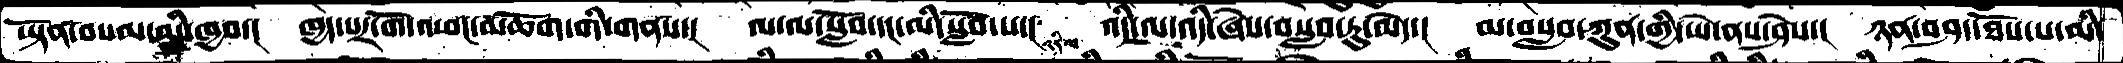ཡྟོན་བསམ་མི་ཁྱབ་། ཁྱད་པར་གོ་འཕང་མཆོག་གི་གནས་། ལ་ལ་སློབ་དང་མི་སློབ་པ་། འདི་ལ་འདི་ཞེས་བསླབ་ཏུ་མེད་། མ་བསླབ་ཀུན་གྱི་ཡེ་ནས་ཤེས་། ཉན་བཤད་ཐོས་པ་མི་
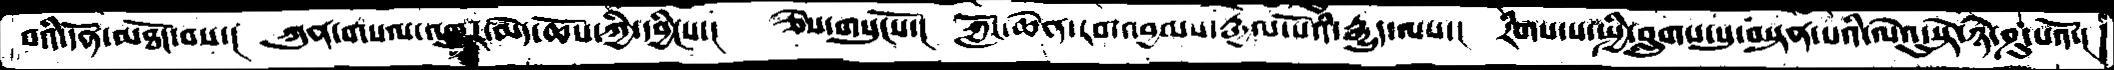བའི་དོན་མཐོང་བས་།  ཀུན་གསལ་འགྱུར་མེད་ཆོས་ཀྱི་དབྱིངས་།  ཅེས་གསུངསོ་།  ཀློང་ཆེན་རབ་འབྱམས་རྒྱལ་པོའི་རྒྱུད་ལས་།  རིགས་པ་སྤྱི་བླུགས་སུ་བསྟན་པའི་ལེའུ་སྟེ་ཉི་ཤུ་པའོ་།
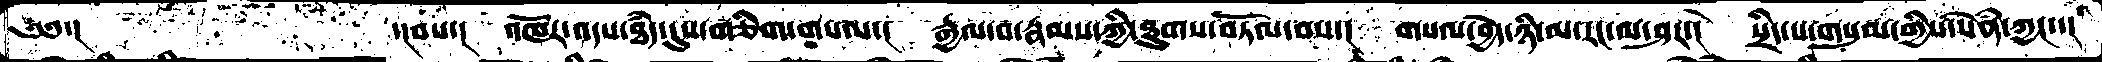༄༅་།                ་།བས་།  འཁོར་འདས་ཐཾད་དུས་གཅིག་གསལ་།  རྒྱལ་བ་རྣམས་ཀྱི་ཐུགས་བཏོལ་བས་། གསལ་བྱེད་ཉི་མ་རང་ལ་ཤར་།  སྲིད་པ་གསུམ་གྱིས་སེཾན་ཀྱང་།
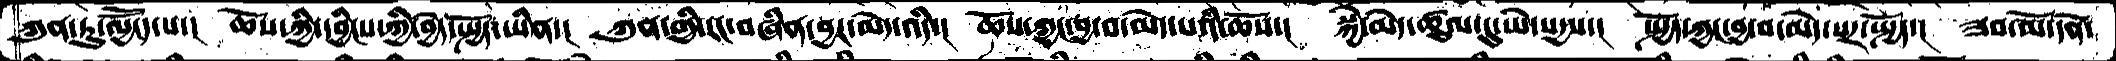ཀུན་ཏུ་ལྱོངོད་པ་།  ཆོས་ཀྱི་དབྱིངས་ཀྱི་བྱེད་སྤྱོད་ཡིན་།  ཀུན་གྱི་རང་བཞིན་བྱར་མེད་འདི་།  ཆོས་ཀྱང་བྱ་བ་མེད་པའི་ཆོས་།  སྐྱེ་མེད་ཚུལ་དུ་ཡེ་སདྱས་།  སྤྱོད་ཀྱང་བྱ་བ་མེད་པར་སྤྱོད་། ཟབ་མོ་དོན་
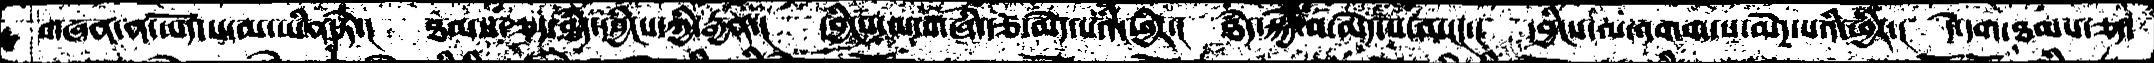གཞན་ན་ཡོད་པ་མ་ཡིན་ཏེ་།  ཐམས་ཅད་ཐཾད་དབྱིངས་ཀྱི་རྒྱན་།  དབྱིངས་ལ་གཞི་རྩ་མེད་པའི་ཕྱིར་།  ཐཾད་སྐྱེ་བ་མེད་པ་ལ་།་།  དབྱིངས་ལ་འགག་པ་མེད་པའི་ཕྱིར་།  དེ་དག་ཐམས་ཅད་
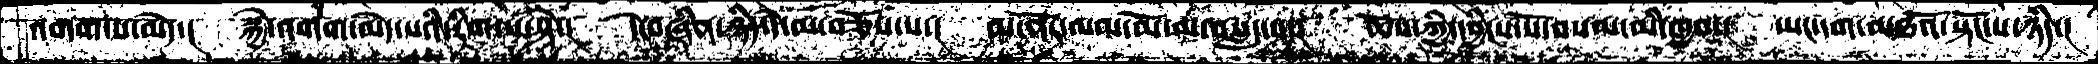འགག་པ་མེད་།  སྐྱེ་འགག་མེད་པའི་རིག་པ་སྟེ་།  དེ་བཞིན་ཉིད་དེ་མ་བཅོས་པ་།  མངོནར་ལམ་མོ་མ་བསླད་པ་།  ཆོས་ཀྱི་དབྱིངས་སོ་བསམ་མི་ཁྱབ་།  ཡང་དག་མཐའོ་སྟོང་པ་ཉིད་།
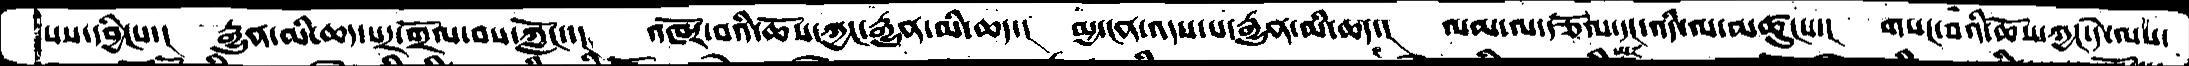པས་དབྱིངས་།  རྒྱུན་མི་ཆད་པར་གྲོལ་བས་ཀློང་་།  འཁོར་བའི་ཆོས་ཀྱང་རྒྱུན་མི་ཆད་།  མྱ་ངན་འདས་པ་རྒྱུན་མི་ཆད་།  ལམ་ལ་རྩོལ་དང་འདི་ལ་མཚུངས་།  གསང་བའི་ཆོས་ཀྱང་དེ་ལས་
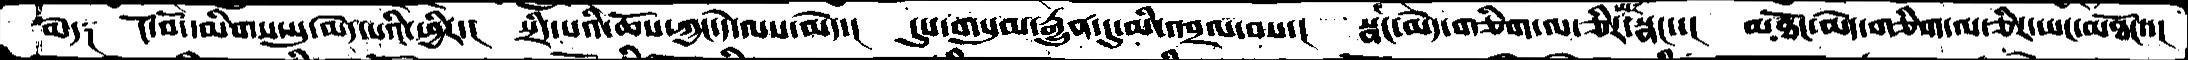མེད༑  ངོ་བོ་དམིགས་སུ་མེད་པའི་ཕྱིར་།  སྲིད་པའི་ཆོས་ཀྱང་དེ་ལས་མེད་།  དུས་གསུམ་རྒྱུན་དུ་མི་འབྲལ་བས་།  སྣང་མེད་གཅིག་ལ་ཅིར་ཡང་སྣང་་།  མཐོང་མེད་གཅིག་ལ་ཅིར་ཡང་མཐོང་་།
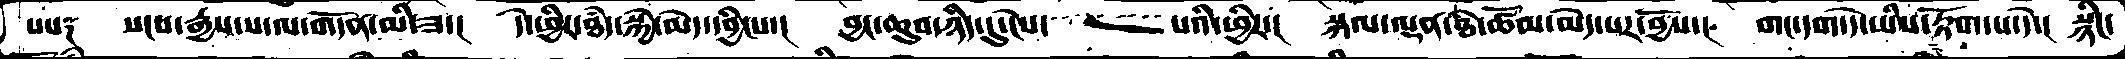པས༑  སངས་རྒྱས་ས་ལ་གདོན་མི་ཟ་།  དེ་ཕྱིར་ཐཾད་སྐྱེ་མེད་དབྱིངས་།  བྱང་ཆུབ་ཉིད་དུ་ངེས་་་་་་་་པའི་ཕྱིར་།  སྐལ་ལྡན་ཐེ་ཚོམ་མེད་པར་བྱོས་།  གང་དག་དེ་ཡིས་རྟོག་པ་དེ་།  སྙིང་
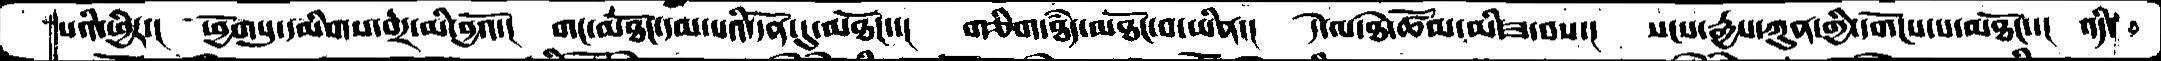པའི་ཕྱིར་།  ཕྱོགསུ་དམིགས་པར་མི་བྱའོ་།  གང་མཐོང་དམ་པའི་དོན་དུ་མཐོང་་།  གཅིག་ཐཾད་མཐོང་བ་ཡིན་།  དེ་ལ་ཐེ་ཚོམས་མི་ཟ་བས་།  སངས་རྒྱས་ཀུན་གྱི་དགོངས་པ་མཐོང་་།  འདི་
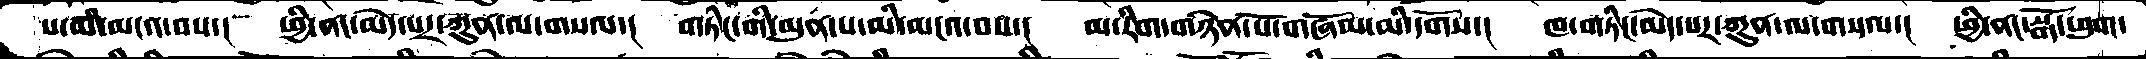པ་མི་མངའ་བས་། ཕྱི་ནང་མེད་པར་ཀུན་ལ་གསལ་། གཏིང་གི་མུན་པ་མི་མངའ་བས་། མ་རིག་གཉེན་པོ་གཞོམ་མི་དགོས་། ཁ་གཏིང་མེད་པར་ཀུན་ལ་གསལ་། ཕྱི་ནང་སྒོ་ཕུག་
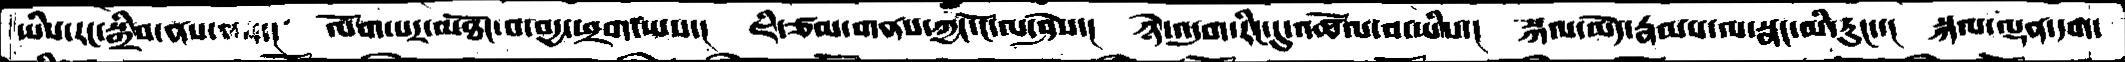ཡིས་རང་སྒྲིབ་ནས་། ལོག་པར་མཐོང་བ་བདྱ་ཕྲག་ཡས་། ཇི་ཙམ་གནས་ཀྱང་ངོ་ལ་ཤེས་། ཉེ་འདུག་རིང་དུ་འཚོལ་བ་ཡིས་། སྐལ་མེད་རྣམས་ལ་སྣང་མི་རུང་་། སྐལ་ལྡན་དག་
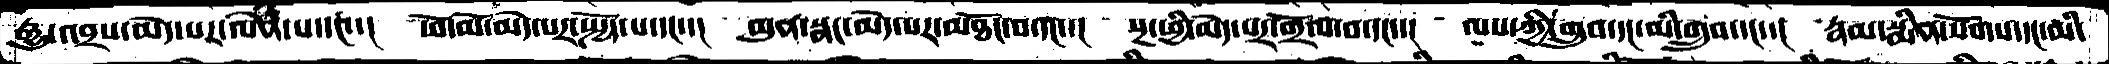རྒྱུ་འབྲས་མེད་པར་ལེན་པ་དང་་། ཕོ་མོ་མེད་པར་སྤྱོད་པ་དང་་། མུན་སྣང་མེད་པར་མཐོང་བ་དང་་། སྔ་ཕྱི་མེད་པར་གྲོལ་བ་དང་་། ལས་ཀྱི་གྲུབ་དང་མི་གྲུབ་དང་་། རྣམ་སྨིན་སོགས་དང་མི་
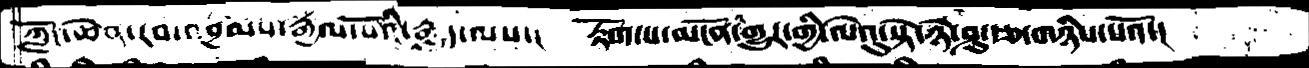ཀློང་ཆེན་རབ་འབྱམས་རྒྱལ་པོའི་རྒྱུད་ལས་།  རྟོག་པ་མངོན་འགྱུར་གྱི་ལེའུ་སྟེ་ཉེ་ཤུ་རྩ་གཉིས་པའོ་།
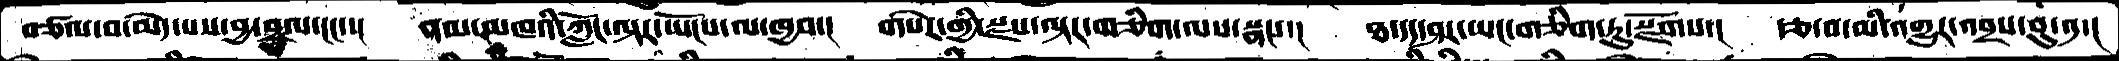བཙལ་བ་མེད་པས་བྱ་བྲལ་ངང་་།  ནམ་མཁའི་ཀློང་ལྟར་ཡོངས་ལ་ཁྱབ་། གསེར་གྱི་སྫས་ལྟར་གཅིག་ལས་སྣང་་། ཐ་དད་ཤར་ཡང་གཅིག་ཏུ་སྫོགས་། རྩ་བ་མི་འགྱུར་འབྲས་བུ་༡་།
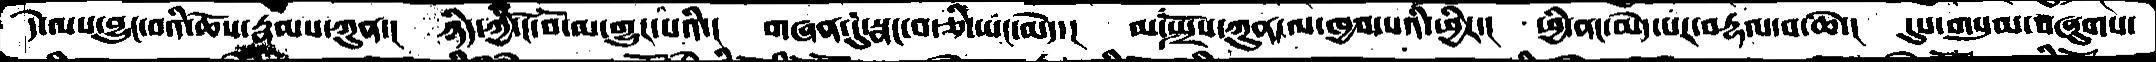དེ་ལས་བྱུང་བའི་ཆོས་རྣམས་ཀུན་། ཉིད་ཀྱི་ངོ་བོ་མ་གྱུར་པའི་།  གཞན་དུ་སྣང་བ་ཅི་ཡང་མེད་། མ་སྤྲོས་ཀུན་ལ་ཁྱབ་པའི་ཕྱིར་། ཕྱི་ནང་མེད་པར་བརྡལ་བ་ཆེ་། དུས་གསུམ་བཞུགས་
